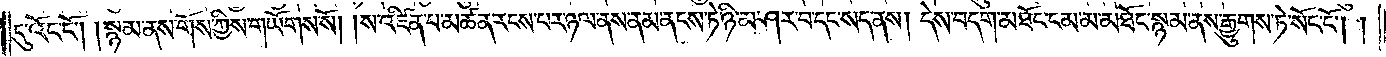དུ་འོང་ངོ༌། །སྙམ་ནས་གོས་ཀྱིས་གཡོགས་སོ། །ས་འཛིན་པ་མཚན་རངས་པར་ཉལ་ནས་ནམ་ནངས་ཏེ་ཉི་མ་ཤར་བ་དང་སད་ནས། དེ་བདག་མཐོང་ངམ་མ་མཐོང་སྙམ་ནས་རྒྱུགས་ཏེ་སོང་ངོ༌། །
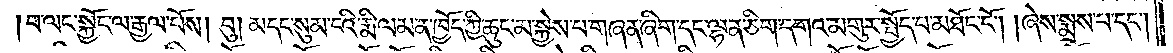བ་ལང་སྐྱོང་ལ་རྒྱལ་པོས། བུ། མདང་སུམ་ངའི་རྨི་ལམ་ན་ཁྱོད་ཀྱི་ཆུང་མ་སྐྱེས་པ་གཞན་ཞིག་དང་ལྷན་ཅིག་དགའ་མགུར་སྤྱོད་པ་མཐོང་ངོ༌། །ཞེས་སྨྲས་པ་དང༌།
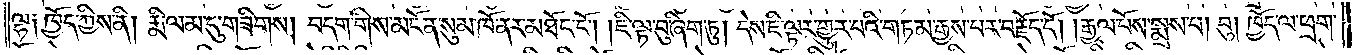ལྷ༑ ཁྱོད་ཀྱིས་ནི། རྨི་ལམ་དུ་གཟིགས། བདག་གིས་མངོན་སུམ་ཁོ་ནར་མཐོང་ངོ༌། །ཇི་ལྟ་བུ་ཞིག་ཏུ། དེས་ཇི་ལྟར་གྱུར་པའི་གཏམ་རྒྱས་པར་བརྗོད་དོ། །རྒྱལ་པོས་སྨྲས་པ། བུ། ཁྱོད་ལ་ཕྲག་
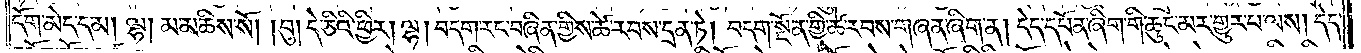དོག་མེད་དམ། ལྷ། མ་མཆིས་སོ། །བུ། དེ་ཅིའི་ཕྱིར། ལྷ། བདག་རང་བཞིན་གྱིས་ཚེ་རབས་དྲན་ཏེ། བདག་སྔོན་གྱི་ཚེ་རབས་གཞན་ཞིག་ན། དེད་དཔོན་ཞིག་གི་ཆུང་མར་གྱུར་པ་ལས། དེད་
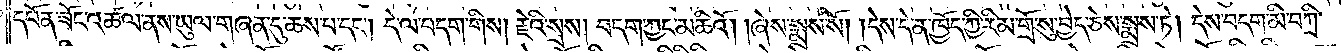དཔོན་ཟོང་འཚལ་ནས་ཡུལ་གཞན་དུ་ཆས་པ་དང༌། དེ་ལ་བདག་གིས། རྗེའི་སྲས། བདག་ཀྱང་མཆིའོ། །ཞེས་སྨྲས་སོ། །དེས་དེ་ན་ཁྱོད་ཀྱི་རིམ་གྲོ་སུ་བྱེད་ཅེས་སྨྲས་ཏེ། དེས་བདག་མི་བཀྲི་
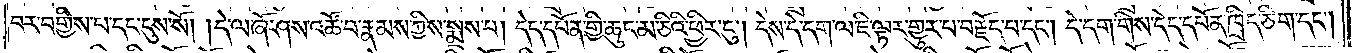བར་བགྱིས་པ་དང་ངུས་སོ། །དེ་ལ་ཞོ་ཤས་འཚོ་བ་རྣམས་ཀྱིས་སྨྲས་པ། དེད་དཔོན་གྱི་ཆུང་མ་ཅིའི་ཕྱིར་ངུ༌། དེས་དེ་དག་ལ་ཇི་ལྟར་གྱུར་པ་བརྗོད་པ་དང༌། དེ་དག་གིས་དེད་དཔོན་ཁྲིད་ཅིག་དང༌།
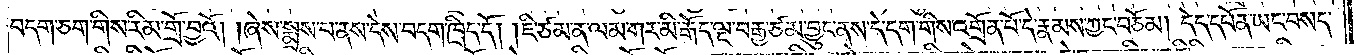བདག་ཅག་གིས་རིམ་གྲོ་བྱའོ། །ཞེས་སྨྲས་པ་ནས་དེས་བདག་ཁྲིད་དོ། །ཇི་ཙམ་ན་ལམ་གར་མི་རྒོད་ལྔ་བརྒྱ་ཙམ་བྱུང་ནས་དེ་དག་གིས་འགྲོན་པོ་དེ་རྣམས་ཀྱང་བཅོམ། དེད་དཔོན་ཡང་བསད་
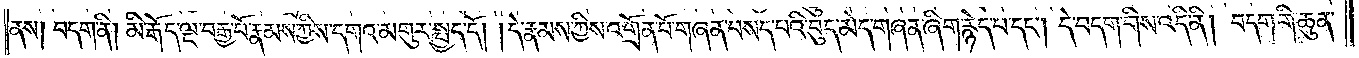ནས། བདག་ནི། མི་རྒོད་ལྔ་བརྒྱ་པོ་རྣམས་ཀྱིས་དགའ་མགུར་སྤྱད་དོ། །དེ་རྣམས་ཀྱིས་འགྲོན་པོ་གཞན་བསད་པའི་བུད་མེད་གཞན་ཞིག་རྙེད་པ་དང༌། དེ་བདག་གིས་འདི་ནི། བདག་གི་ཆུན་
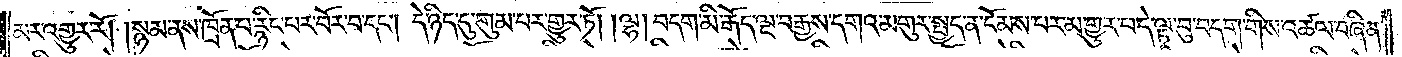མར་འགྱུར་རོ། །སྙམ་ནས་ཁྲོན་པ་རྙིང་པར་བོར་བ་དང༌། དེ་ཉིད་དུ་གུམ་པར་གྱུར་ཏོ། །ལྷ། བདག་མི་རྒོད་ལྔ་བརྒྱས་དགའ་མགུར་སྤྱད་ན་ངོམས་པར་མ་གྱུར་པ་དེ་ལྟ་བུ་བདག་གིས་འཚལ་བཞིན་
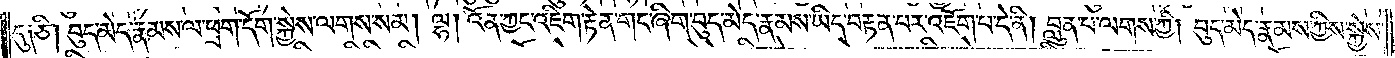དུ༑ ཅི། བུད་མེད་རྣམས་ལ་ཕྲག་དོག་སྐྱེས་ལགས་སམ། ལྷ། འོན་ཀྱང་འཇིག་རྟེན་གང་ཞིག་བུད་མེད་རྣམས་ཡིད་བརྟན་པར་འཇོག་པ་དེ་ནི། བླུན་པ་ལགས་ཀྱི། བུད་མེད་རྣམས་ཀྱིས་སྐྱེས་
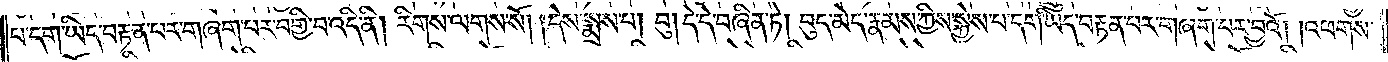པ་དག་ཡིད་བརྟན་པར་གཞག་པར་བགྱི་བ་འདི་ནི། རིགས་ལགས་སོ། །དེས་སྨྲས་པ། བུ། དེ་དེ་བཞིན་ཏེ། བུད་མེད་རྣམས་ཀྱིས་སྐྱེས་པ་དག་ཡིད་བརྟན་པར་གཞག་པར་བྱའོ། །འཕགས་
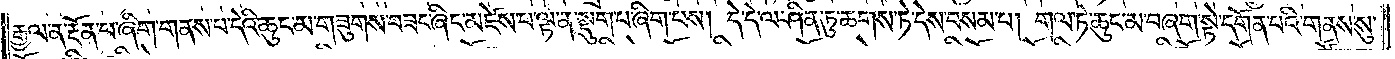རྒྱལ་ན་རྔོན་པ་ཞིག་གནས་པ་དེའི་ཆུང་མ་གཟུགས་བཟང་ཞིང་མཛེས་པ་ལྟ་ན་སྡུག་པ་ཞིག་པས། དེ་དེ་ལ་ཤིན་ཏུ་ཆགས་ཏེ་དེས་བསམ་པ། གལ་ཏེ་ཆུང་མ་བཞག་སྟེ་དགོན་པའི་གནས་སུ་
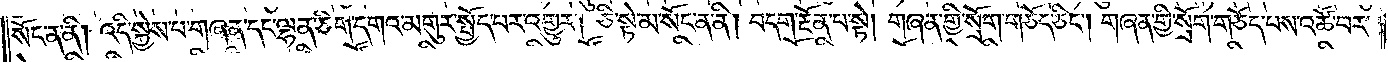སོང་ན་ནི། འདི་སྐྱེས་པ་གཞན་དང་ལྷན་ཅིག་དགའ་མགུར་སྤྱོད་པར་འགྱུར། ཅི་སྟེ་མ་སོང་ན་ནི། བདག་རྔོན་པ་སྟེ། གཞན་གྱི་སྲོག་གཅོད་ཅིང༌། གཞན་གྱི་སྲོག་གཅོད་པས་འཚོ་བར་
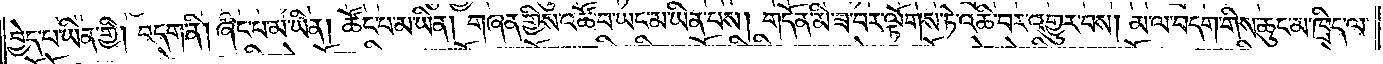བྱེད་པ་ཡིན་གྱི། བདག་ནི། ཞིང་པ་མ་ཡིན། ཚོང་པ་མ་ཡིན། གཞན་གྱིས་འཚོ་བ་ཡང་མ་ཡིན་པས། གདོན་མི་ཟ་བར་ལྟོགས་ཏེ་འཆི་བར་འགྱུར་བས། མ་ལ་བདག་གིས་ཆུང་མ་ཁྲིད་ལ་
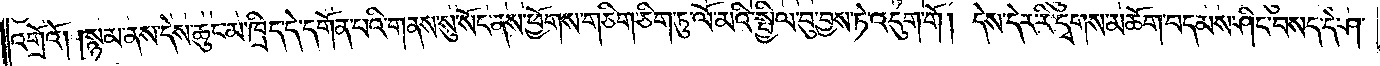འགྲོའོ། །སྙམ་ནས་དེས་ཆུང་མ་ཁྲིད་དེ་དགོན་པའི་གནས་སུ་སོང་ནས་ཕྱོགས་གཅིག་ཅིག་ཏུ་ལོ་མའི་སྤྱིལ་བུ་བྱས་ཏེ་འདུག་གོ། དེས་དེར་རི་དྭགས་མཆོག་བདམས་ཤིང་བསད་དེ་ཤ་
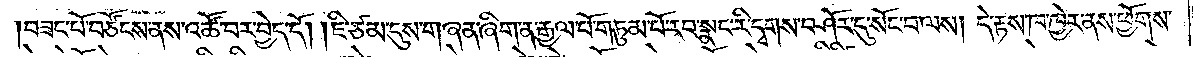བཟང་པོ་བཙོངས་ནས་འཚོ་བར་བྱེད་དོ། །ཇི་ཙམ་དུས་གཞན་ཞིག་ན་རྒྱལ་པོ་གཏུམ་པོ་རབ་སྣང་རི་དྭགས་བཤོར་དུ་སོང་བ་ལས། དེ་རྟས་ཁ་ཁྱེར་ནས་ཕྱོགས་
